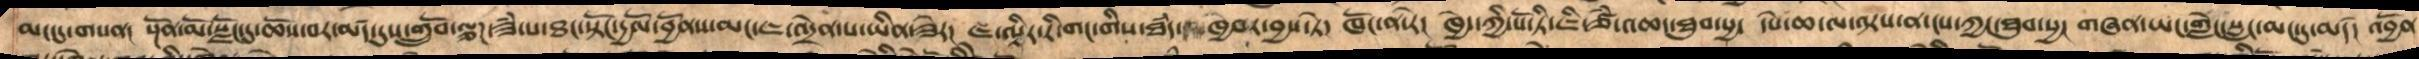མང་དུ་གསན།  སྔོན་མོ་སྫོང་དུ་ཆོས་བར་མཛད་དུས་གྲོུབ་ལྕཌ་ཟཾ་པ་ཐང་སྟོང་དྱལོ་བྱོནས་མང་ཇ་འདྲེན་པ་ཡིན་ཟེར།  ཇ་ལྟིར་རི་གང་གིས་ཐཾད་ཁྱབར་བྱས་ཏེ།  ཁོང་ན་རེ།  ཁྱེད་ཀྱི་པོ་ཏི་ཇི་ཙཾ་འཆད་ཐུབ་སྱ་  དཔེ་ཆ་ལ་ལྟས་ན་ངས་ཀྱང་ཐུབ་སྱ།  གཞན་ཡང་གླེང་སླང་མང་དུ་མཛད།  འབྱོན་
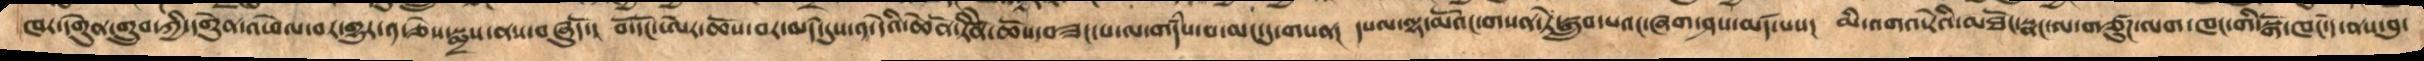ཁར་དགེུན་གྲུབ་ཀྱི་དགེུན་འཕེལ་བར་གྱུར་༡་ཅེས་སྨྲས་ནས་བཞུདོ་།  བོ་དོང་ཨེར་ཆོས་བར་མཛད་དུས་ན་དེའི་ཆེནོ་རིནོ་ེཆོས་བཟང་པ་ལ་གདཾས་པ་མང་དུ་གསན།  དཔལ་ལྷ་མོའང་གསན་ཏེ་སྒྲུབ་པའང་ཞག་ཤས་མཛད་པས།  མི་འགའ་རེའི་མཐོང་སྣང་ལ་གཙུཌ་ལག་ཁང་གི་སྒོ་ཁང་དེ་ནས་བུ་
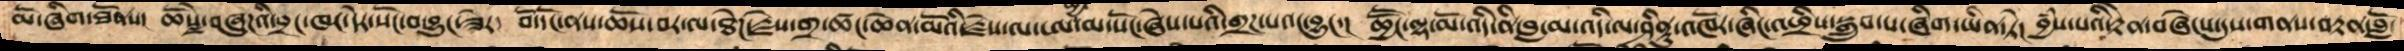མོ་ཞིག་ཐོནས། ཆོསྗེ་བཞུཌའི་བྲང་ཁང་དེར་སོང་བ་བྱུང་ཟེར། བོ་དོང་ནས་ཆོས་བར་ལ་ཐེཌརྗེས་གྲ་ཚང་ཆེན་མོའི་རྗེས་ལ་ཨ་ཕྱི་མ་སོང་ཞེས་པའི་གྲཌ་པའང་བྱུང་། ཆྱཽང་ལྷ་མོ་འདི་ནི་བླ་མ་འདི་ལ་ཤིནྟུ་འཁོར་ཞིང་འཕྲིས་སྒྲུབ་པ་ཞིག་ཡིན་ཏེ། བྱཾས་པའི་རྟེན་བཞེངས་དུས་གནས་བརྟན་བློ་
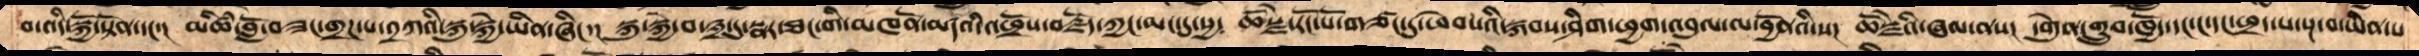བ་འདི་སྐྱོ་སྟོན་པ་དང་།  མཚི་བློ་བཟང་གྲཌ་པ་༢ཀའི་སྐུ་སྐྱེ་ཡིན་ཞིང་།  སྐུ་སྐྱེ་བ་༣་དུ་སྣར་ཐང་གི་མཁནོ་མཛདའི་འཕྲོས་བརྗོད་ཀྱང་མང་དུ་པྱ་   ཆོསྗེ་རོང་པོ་གཙང་དུ་ཕེབཔའི་སྐབས་ཤིག་ཕྱག་འབུལ་ལ་བྱོནའི་ས།  ཆོསྗེའི་ཞལ་ནས།  དགེུན་གྲུབ་ཁྱོད་དང་ང་དང་ཕྲད་པ་སྔ་བ་ཡིན་པ
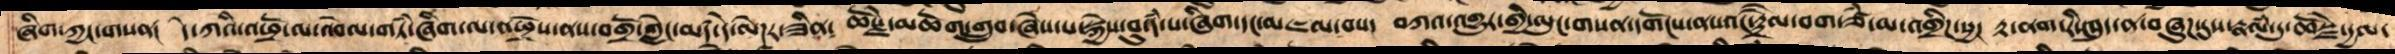ཞིག་ཀྱང་གསན།  དེ་ཀའི་འཕྲོ་ལ་འབེལ་གཏཾ་ཞིག་ལ་འཕྲོས་ནས་བགྲོ་གླེང་མཛད་དེ་ལེཌར་ཟིན་  ཆོསྗེ་མཆོག་གྲུབ་ཞེས་པ་སྐྱེས་བུ་དཾ་པ་ཞིག་དང་མཇལ་བས།  བཀའ་འགྱུར་གྱི་ལུང་གསན་དགོངས་ནསའང་རྟྲཻལ་བག་ཙཾ་མ་འགྲིཌ་པྱ།  རྟ་ནག་རི་ཁུད་ན་བཞུཌ་དུས་རྣལཾ་དུ་ཆོསྗེ་དདྱལ་
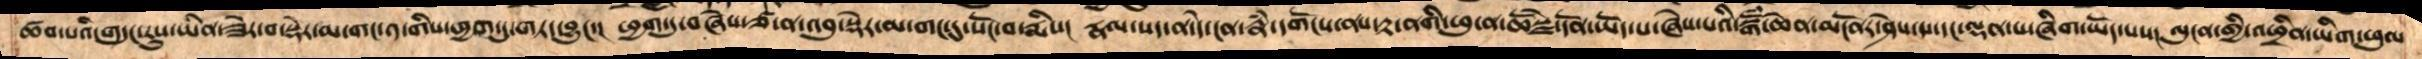ཚབ་པའི་གདུང་རུས་ཡིན་ཟེར་བ་སྡེར་མ་གང་༡་གིས་ཕྱག་དུ་གཏད་བྱུང་།  ཕྱག་དུ་བཞེས་ཙ་ན་འབུ་སྡེར་མ་གང་དུ་སོང་བ་རྨིས།  རྣལ་སད་ན་དེ་ངན་ནཾ་དགོངས་ནས་རྟ་ནགི་ཕུ་ན་ཆོསྗེ་དོན་ཡོད་པ་ཞེས་པའི་སྒོཾ་ཆེན་མངོནར་ཤེས་པ་དང་ལྡན་པ་ཞིག་ཡོད་པས།  ལུངན་གྱི་འཕྲིན་ཡིག་ཕུལ
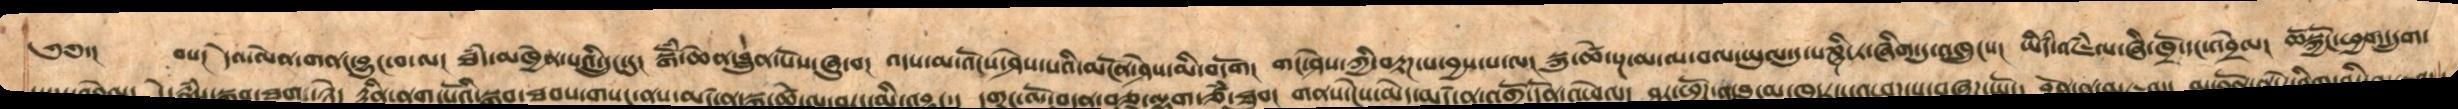༄༅་།   བས། དེའ་ལེན་གནང་བྱུང་བ་ལ། ཐཾད་མཁྱེན་པའི་དྲུང་དུ། སྒོཾ་ཆེན་བླུན་པོས་ཞུ་བ། འདས་མ་འོངས་ཤེས་པའི་མངོན་ཤེས་མི་བདོག།  གང་ཤེས་ཀྱི་བརྟཌ་པ་བྱས་པ་ལ། སྐུ་ཚེ་སྔ་མ་བལ་ཡུལ་དུ་པཎྜི་ཏ་ཞིག་ཏུ་འཁྲུངས། ཡིདཾ་འཇཾལ་ཞི་ཁྲོ་དང་འབྲེལ། ཆོསྐྱོང་ཕྱག་དྲུག་
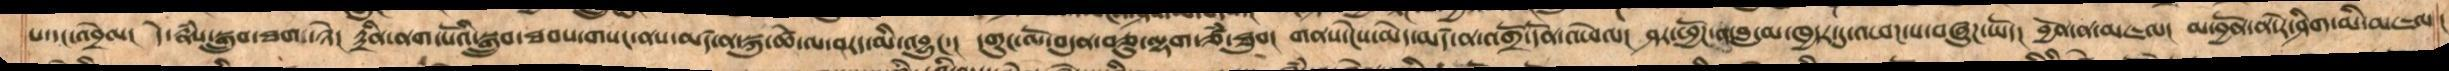པ་དང་འབྲེལ།  དེ་རྣཾས་སྒྲུབ་ཐག་ཉེ། རྟྲིན་ནག་པོའི་སྒྲུབ་ཐབས་གསང་ནས་མཛད་ན་སྐུ་ཚེ་ལ་བརད་མི་འབྱུང་།  དགུང་ལོ་བདུན་ཅུ་ལྷག་ཙཾ་ཐུབ།  གནས་ངེས་མེད་མཛད་ན་འགྲོ་དོན་འཕེལ།  ཤར་ཕྱོཌ་ན་བླ་མ་ཁྱདར་དུ་འཕཌ་པ་བཞུཌ་ཡོད།  བྱོན་ན་མཇལ།  མ་བྱོན་ན་རེ་ཤིག་མི་མཇལ་
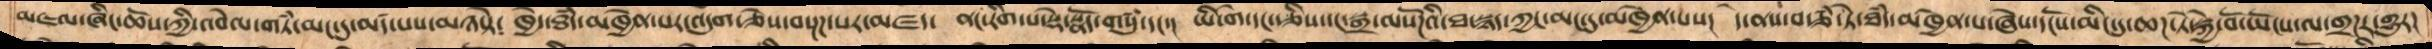མཇལ་ཞིང་ཆོས་ཀྱི་འབེལ་གཏཾ་མང་དུ་མཛད་པས་མཉསྟེ།  ཁྱེད་ཐཾད་མཁྱེན་པར་འདུག་ཅེས་བསྔཌ་པ་མཛད།  ནང་རིག་པ་སྡེ་སྣོད་གསུཾ་དང་།  ཡི་གེ་དང་རྩིས་དང་སྒྲ་ལསོཌའི་ཐ་སྙད་ཀྱང་མང་དུ་མཁྱེན་པས།  དེ་ནས་བརྩཾ་ཏེ་ཐཾད་མཁྱེན་པ་ཞེས་དངོས་མིང་དུ་ཆཌ་ཏེ་སྐྱེ་བོ་ཡོངས་ལ་གྲཌར་གྱུར།
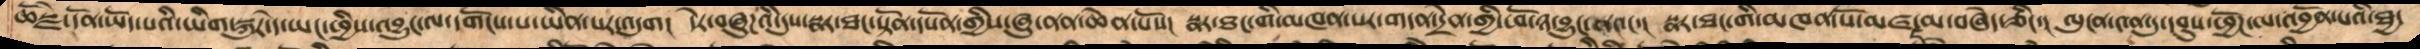ཆོསྗེ་དོན་ཡོད་པའི་ཡིག་སྐུར་དེ་ཡང་ཕྱིས་འབྱུང་ལ་དགོངས་པ་ཡིན་པར་འདུག།  དེར་བཞུཌའི་དུས་སྣར་ཐང་སྟོན་དཔོན་གྱིས་ཞུ་ནན་ཆེན་པོས།  སྣར་ཐང་གི་མཁན་པོར་གདན་དྲེན་གྱི་ཕོ་ཉ་བྱུང་ནའང་།  སྣར་ཐང་གི་མཁན་པོ་མཛད་མ་བཞེད་ཅིང་།  ལུངན་༤ན་དབུས་ཕྱོཌ་ལ་འབྱོན་པའི་ཐྱ་
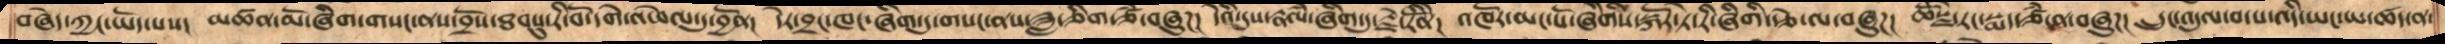བཞེད་ཀྱང་ཡོད་པས།   མཚན་མོ་ཞིག་གསང་ནས་བྲོས་ཐབསུ་རི་བོ་དགེ་འཕེལ་དུ་བྱོན།  དེར་བྲང་ཁང་ཞིག་དུ་གསང་ནས་ཟླ་ཅིག་ཙཾ་བཞུཌ།  དེའི་དུས་རྣལཾ་ཞིག་དུ་རྗེ་རིནོེ།  འཁོར་མང་པོ་ཞིགིས་སྐོར་ཏེ་རི་ཞིགི་རྩེ་ལ་བཞུཌ།  ཆོསྗེ་རང་སྨད་ཙཾ་ན་བཞུཌ།  དྲུང་འདུལ་བ་པ་འདི་ཡང་ཡ་ཚད་ན་
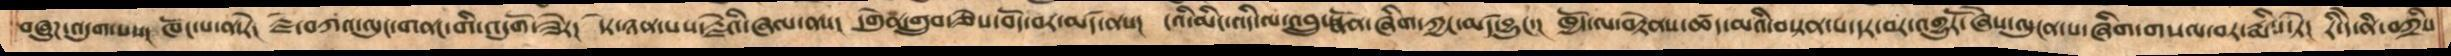བཞུཌ་འདུག་པས།  ཁོང་པ་ན་རེ།  རྗེ་བཀའ་ལུང་གནང་གི་འདུགོ་ཟེར།  དེར་ཉན་པས་རྗེའི་ཞལ་ནས།  དགེུན་གྲུབ་ཅེས་བོད་བར་མཛད་ནས།  ངའི་མིང་འདི་ལ་འབྲུ་སྣོན་ཞིག་ཀྱང་མཛད་བྱུང་།  ཁྱོད་ལ་བརྟེནས་ཚད་མའི་བསྟན་པ་དར་བར་འགྱུརོ་ཞེས་ལུངན་པ་ཞིག་གསལ་བར་རྨིས་ཏེ།  རི་དེ་ནི་བཀྲིས་
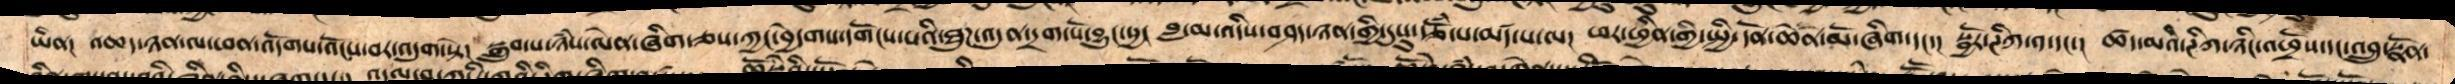ཡིན། འཆད་ཉན་ལ་ཕན་འདོགས་འོང་བར་འདུག་སྟེ། སྒྲུབ་པ་ཉཾས་ལེན་ཞིག་ཅས་ཀྱང་བྱེདགས་དགོངས་པའི་ཐུཌ་འདུན་དྲག་པོ་བྱུང་སྱ།  བླ་མ་འདིས་བཤད་ཉན་གྱི་དུསུ་ཙོཾ་པ་མཛད་པ་ལ།།  ཕར་ཕྱིན་གྱི་སྤྱི་དོན་ཆེན་མོ་ཞིག་དང་།  སྦྱོར་ཌིཀ་༡་དང་།  ཚད་མའི་ཌིཀ་ཉིང་འཕྲོས་དང་འབྲུ་སྣོན་
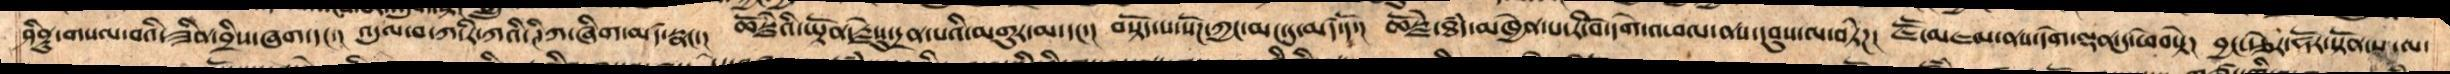ཤིནྟུ་གསལ་བའི་ཟིན་བྲིས་ཞག་དང་།  འདུལ་བ་ཀ་རི་ཀའི་ཊིཀ་ཞིག་མཛད་སྣང་།  ཆོསྗེའི་ཡྟོན་རྗེསུ་དྲན་པའི་མགུར་མ་དང་།  བསྟོད་པ་སོཌ་ཀྱང་མང་དུ་མཛད་དོ་།  ཆོསྗེ་ཐཾད་མཁྱེན་པ་རི་བོ་དགེ་འཕལ་ནས་དབུས་ལ་བཏེཌ།  ཇཽ་མཇལ་ནས་དགེ་ལྡན་དུ་ཕེབསྟེ།  བྱང་རྩེར་ཧོར་སྟོན་པ་ལ་
